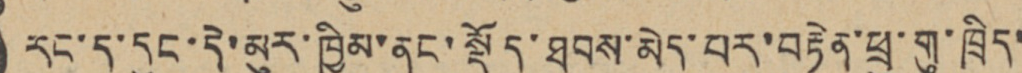རང་ད་དུང་དེ་མུར་ཁྱིམ་ནང་སྡོད་ཐབས་མེད་པར་བརྟེན་ཕྲུ་གུ་ཁྲིད་
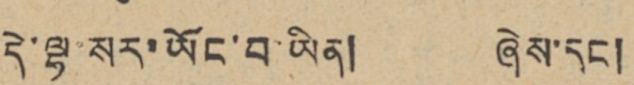དེ་ལྷ་སར་ཡོང་བ་ཡིན། ཞེས་དང།
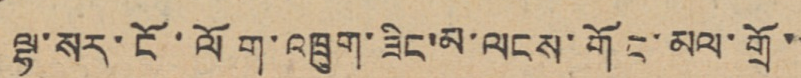ལྷ་སར་ངོ་ལོག་འཁྲུག་ཟིང་མ་ལངས་གོང་མལ་གྲོ་
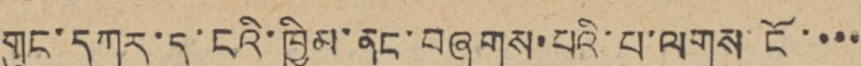གུང་དཀར་དུ་ངའི་ཁྱིམ་ནང་བཞུགས་པའི་པ་ལགས་ངོ་་་་
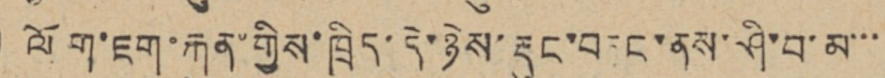ལོག་ཇག་རྐུན་གྱིས་ཁྲིད་དེ་ཉེས་རྡུང་བཏང་ནས་ཤི་བ་མ་་་
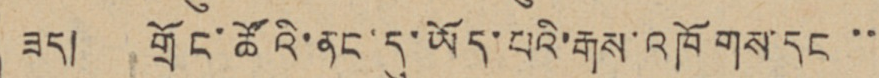ཟད། གྲོང་ཚོའི་ནང་དུ་ཡོད་པའི་རྒས་འཁོགས་དང་་
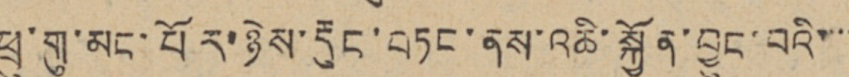ཕྲུ་གུ་མང་པོར་ཉེས་རྡུང་བཏང་ནས་འཆི་སྐྱོན་བྱུང་བའི་་་་
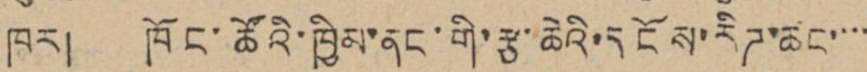ཁར། ཁོང་ཚོའི་ཁྱིམ་ནང་གི་རྩ་ཆེའི་དངོས་རིཊ་ཚང་་་་
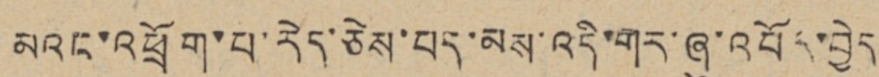མའང་འཕྲོག་པ་རེད་ཅེས་པད་མས་འདི་གར་ཞུ་འབོད་བྱེད
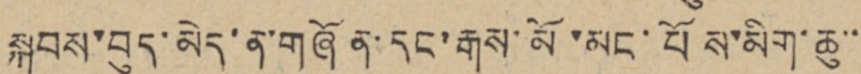སྐབས་བུད་མེད་ན་གཞོན་དང་རྒས་མོ་མང་པོས་མིག་ཆུ་་་
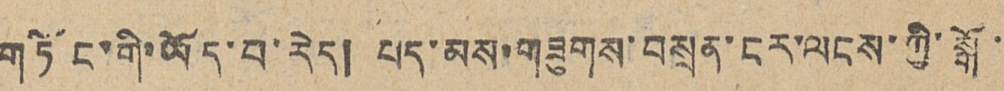གཏོང་གི་ཡོད་པ་རེད། པད་མས་གཟུགས་བསྲན་ངར་ལངས་ཀྱི་སྒོ་
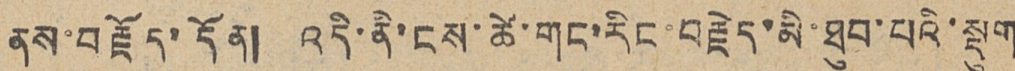ནས་བརྗོད་དོན། འདི་ནི་ངས་ཚེ་གང་རིང་བརྗེད་མི་ཐུབ་པའི་སྡུག
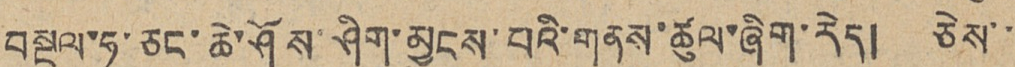བསྔལ་ཧ་ཅང་ཆེ་ཤོས་ཤིག་མྱངས་པའི་གནས་ཚུལ་ཞིག་རེད། ཅེས་་
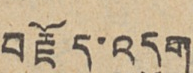བརྗོད་འདུག
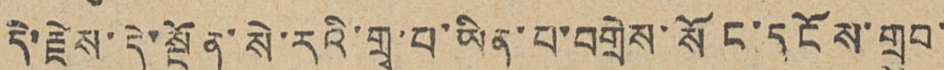དེ་རྗེས་དེ་སྔོན་སེ་རའི་གྲྭ་བ་ཡིན་པ་བགྲེས་སོང་དངོས་གྲུབ་
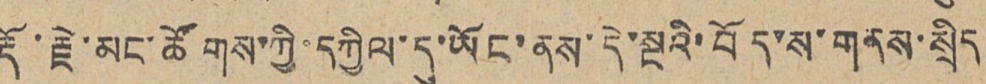རྡོ་རྗེ་མང་ཚོགས་ཀྱི་དཀྱིལ་དུ་ཡོང་ནས་དེ་སྔའི་བོད་ས་གནས་སྲིད་
